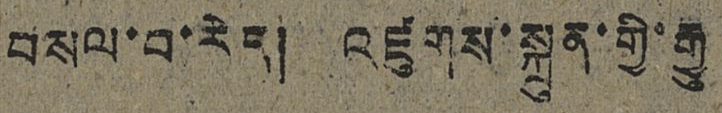བསལ་བ་རེད། འཛུགས་སྐྲུན་གྱི་རྒྱུ
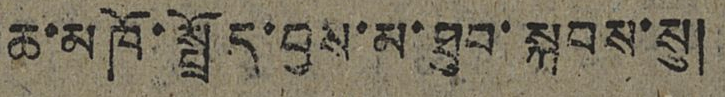ཆ་མཁོ་སྤྲོད་བྱས་མ་ཐུབ་སྐབས་སུ།
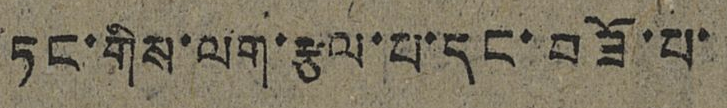ཏང་གིས་ལག་རྩལ་པ་དང་བཟོ་པ་
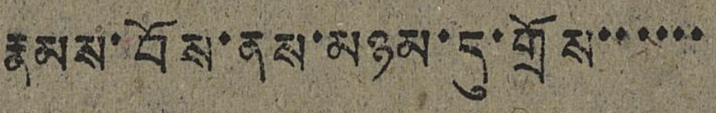རྣམས་བོས་ནས་མཉམ་དུ་གྲོས་་་་་་
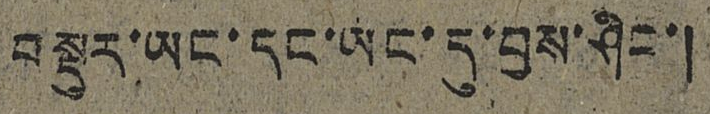བསྡུར་ཡང་དང་ཡང་དུ་བྱས་ཤིང་།
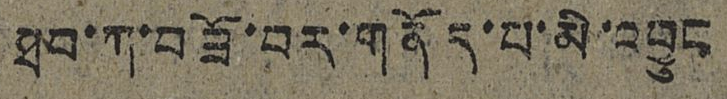ཐབ་ཀ་བཟོ་བར་གནོད་པ་མི་འབྱུང
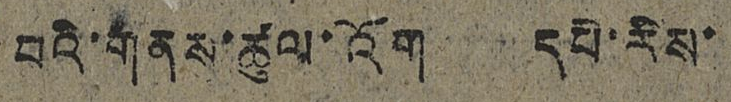བའི་གནས་ཚུལ་འོག དཔེ་རིས་
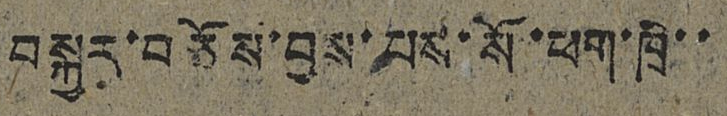བསྐྱར་བཅོས་བྱས་པས་སོ་ཕག་ཁྲི་་
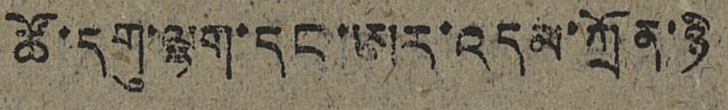ཚོ་དགུ་ལྷག་དང་ཨར་འདམ་ཀྲོན་ཉི
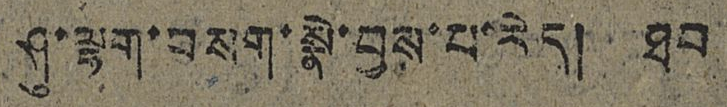ཤུ་ལྷག་བསག་སྣེ་བྱས་པ་རེད། ཐབ
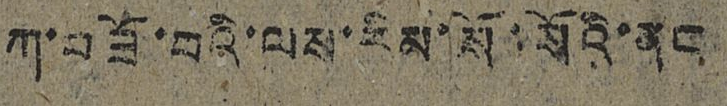ཀ་བཟོ་བའི་ལས་རིམ་སོ་སོའི་ནང
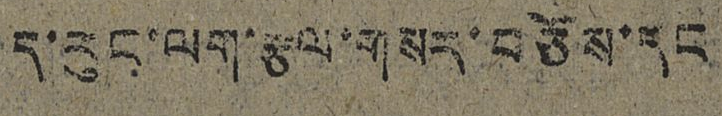ད་རུང་ལག་རྩལ་གསར་བཅོས་དང
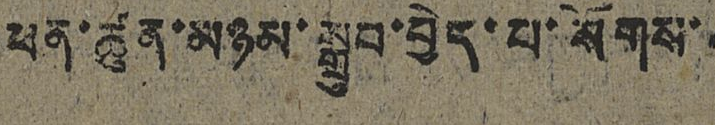ཕན་ཚུན་མཉམ་སྒྲུབ་བྱེད་པ་སོགས་
